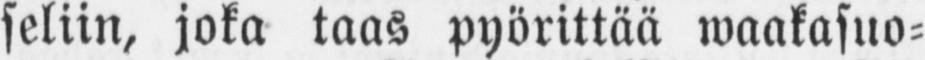seliin, joka taas pyörittää waakasuo-
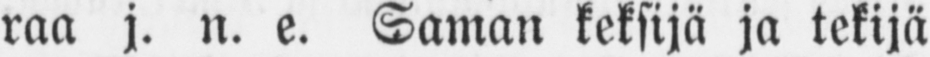raa j. n. e. Saman keksijä ja tekijä
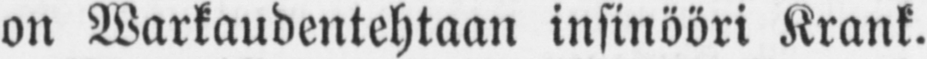on Warkaudentehtaan insinööri Krank.
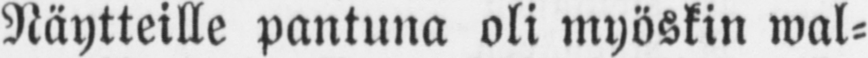Näytteille pantuna oli myöskin wal-
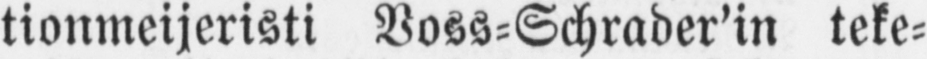tionmeijeristi Voss-Schrader'in teke-
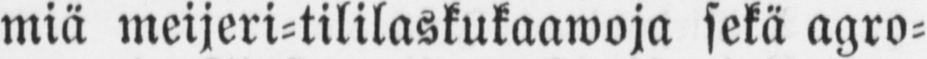miä meijeri-tililaskukaawoja sekä agro-
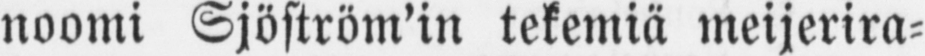noomi Sjöström'in tekemiä meijerira-
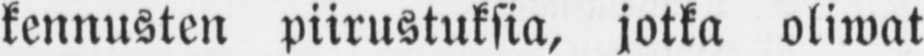kennusten piirustuksia, jotka oliwat
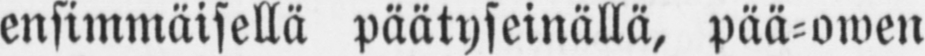ensimmäisellä päätyseinällä, pää-owen
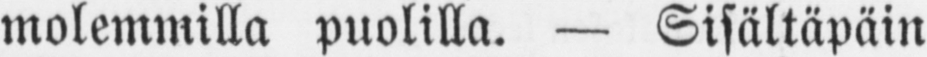molemmilla puolilla. — Sisältäpäin
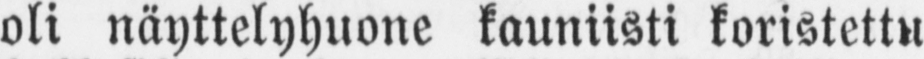oli näyttelyhuone kauniisti koristettu
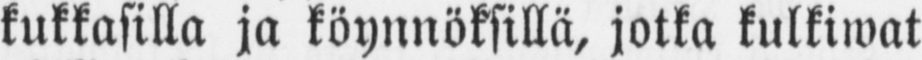kukkasilla ja köynnöksillä, jotka kulkiwat
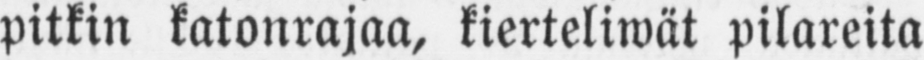pitkin katonrajaa, kierteliwät pilareita
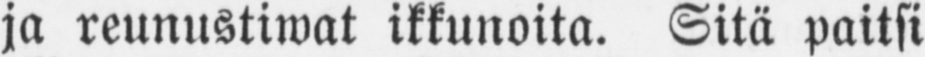ja reunustiwat ikkunoita. Sitä paitsi
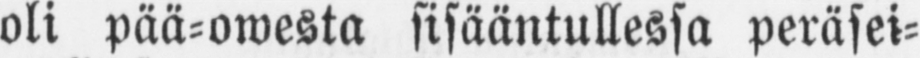oli pää-owesta sisääntullessa peräsei-
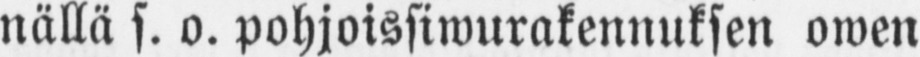nällä s. o. pohjoissiwurakennuksen owen
